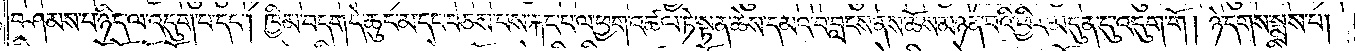བཤམས་པ་ཉིད་ལ་འདུག་པ་དང༌། ཁྱིམ་བདག་དེ་ཆུང་མ་དང་བཅས་པས་རྐང་པ་ལ་ཕྱག་འཚལ་ཏེ་སྟན་ཆེས་དམའ་བ་བླངས་ནས་ཆོས་མཉན་པའི་ཕྱིར་མདུན་དུ་འདུག་གོ། །ཉེ་དགས་སྨྲས་པ།
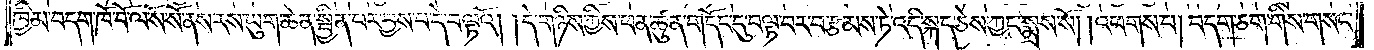ཁྱིམ་བདག་ཁོ་བོ་ལ་སོ་སོ་ནས་རས་ཡུག་ཆེན་སྦྱིན་པར་བྱས་པ་དེ་བལྟའོ། །དེ་གཉིས་ཀྱིས་ཕན་ཚུན་གདོང་དུ་བལྟ་བར་བརྩམས་ཏེ་འདི་སྐད་ཅེས་ཀྱང་སྨྲས་སོ། །འཕགས་པ། བདག་ཅག་གིས་གསང་
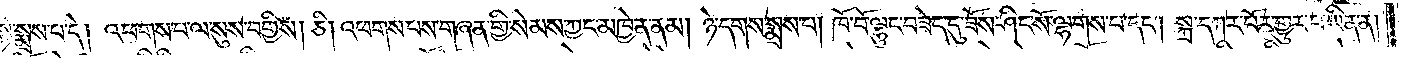སྟེ་སྨྲས་པ་དེ། འཕགས་པ་ལ་སུས་བགྱིས། ཅི། འཕགས་པས་གཞན་གྱི་སེམས་ཀྱང་མཁྱེན་ནམ། ཉེ་དགས་སྨྲས་པ། ཁོ་བོ་ལྷུང་བཟེད་དུ་ཟོས་ཤིང་སོ་ལྷགས་པ་དང༌། སྐྲ་དཀར་པོར་གྱུར་པ་ཡིན་ན།
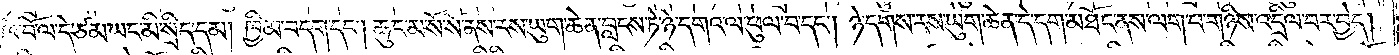ཁོ་བོ་ལ་དེ་ཙམ་ཡང་མི་སྲིད་དམ། ཁྱིམ་བདག་དང༌། ཆུང་མ་སོ་སོ་ནས་རས་ཡུག་ཆེན་བླངས་ཏེ་ཉེ་དགའ་ལ་ཕུལ་བ་དང༌། ཉེ་དགས་རས་ཡུག་ཆེན་དེ་དག་མཐོང་ནས་ལག་པ་གཉིས་འདྲིལ་བར་བྱེད།
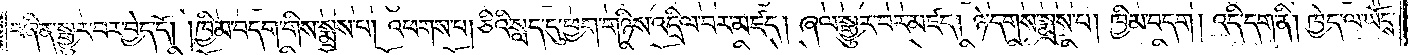བཞིན་སྒྱུར་བར་བྱེད་དོ། །ཁྱིམ་བདག་གིས་སྨྲས་པ། འཕགས་པ། ཅིའི་སླད་དུ་ཕྱག་གཉིས་འདྲིལ་བར་མཛད། ཞལ་སྒྱུར་བར་མཛད། ཉེ་དགས་སྨྲས་པ། ཁྱིམ་བདག། འདི་དག་ནི། ཁྱེད་ལ་ཡོངས་
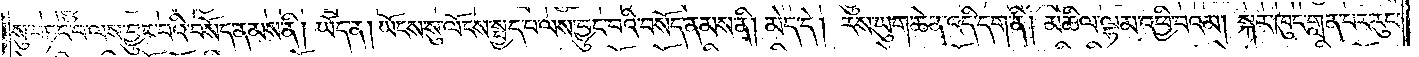སུ་བཏང་བ་ལས་བྱུང་བའི་བསོད་ནམས་ནི། ཡོད་ན། ཡོངས་སུ་ལོངས་སྤྱོད་པ་ལས་བྱུང་བའི་བསོད་ནམས་ནི། མེད་དེ། རས་ཡུག་ཆེན་འདི་དག་ནི། མཆིལ་ལྷམ་འཕྱི་བའམ། སྐར་ཁུང་གླན་པར་རུང་
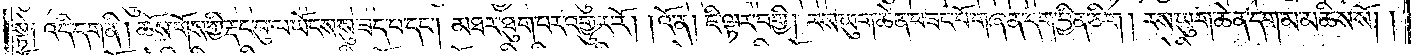སྟེ༏ འདི་དག་ནི། ཆོས་གོས་ཀྱི་རྡང་བུ་ལ་ཡོངས་སུ་ཟད་པ་དང༌། མཐར་ཐུག་པར་འགྱུར་རོ། །འོ་ན། ཇི་ལྟར་བགྱི། རས་ཡུག་ཆེན་བཟང་པོ་གཞན་དག་བྱིན་ཅིག ། རས་ཡུག་ཆེན་དག་མ་མཆིས་སོ། །
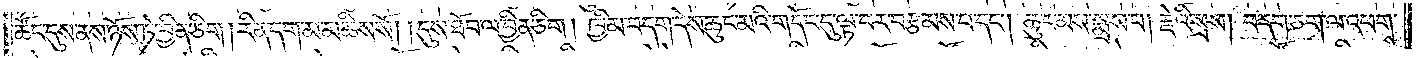ཚོང་དུས་ནས་ཉོས་ཏེ་བྱིན་ཅིག །རིན་དག་མ་མཆིས་སོ། །དུས་ཐོབ་ལ་བྱིན་ཅིག། ཁྱིམ་བདག་དེས་ཆུང་མའི་གདོང་དུ་ལྟ་བར་བརྩམས་པ་དང༌། ཆུང་མས་སྨྲས་པ། རྗེའི་སྲས། བདག་ཅག་ལ་འཕགས་
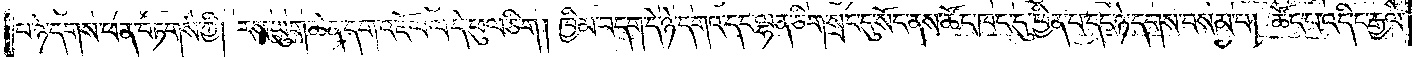པ་ཉེ་དགས་ཕན་བཏགས་ཀྱི། རས་ཡུག་ཆེན་དག་འཇོལ་ལ་དེ་ཕུལ་ཅིག། ཁྱིམ་བདག་དེ་ཉེ་དགའ་དང་ལྷན་ཅིག་སྲང་དུ་སོང་ནས་ཚོང་ཁང་དུ་ཕྱིན་པ་དང་ཉེ་དགས་བསམ་པ། ཚོང་པ་འདི་ང་རྒྱལ་
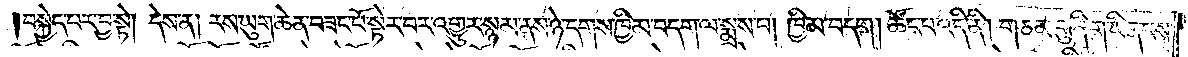བསྐྱེད་པར་བྱ་སྟེ། དེས་ན། རས་ཡུག་ཆེན་བཟང་པོ་སྟེར་བར་འགྱུར་སྙམ་ནས་ཉེ་དགས་ཁྱིམ་བདག་ལ་སྨྲས་པ། ཁྱིམ་བདག། ཚོང་པ་འདི་ནི། གཅམ་བུ་ཞིག་ཡིན་པས་
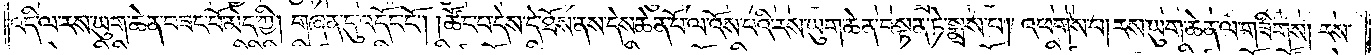འདི་ལ་རས་ཡུག་ཆེན་བཟང་པོ་མེད་ཀྱི། གཞན་དུ་འདོང་ངོ༌། །ཚོང་པ་དེས་དེ་ཐོས་ནས་དེས་ཆེན་པོ་ལ་འོས་པའི་རས་ཡུག་ཆེན་བསྟན་ཏེ་སྨྲས་པ། འཕགས་པ། རས་ཡུག་ཆེན་ལ་གཟིགས། རས་
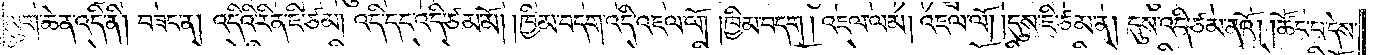ཡུག་ཆེན་འདི་ནི། བཟང་ན། འདིའི་རིན་ཇི་ཙམ། འདི་དང་འདི་ཙམ་མོ། །ཁྱིམ་བདག་འདི་འཇལ་ལོ། །ཁྱིམ་བདག། འཇལ་ལམ། འཇལ་ལོ། །དུས་ཇི་ཙམ་ན། དུས་འདི་ཙམ་ནའོ། །ཚོང་པ་དེས་
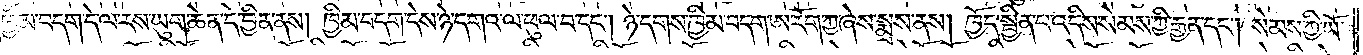ཁྱིམ་བདག་དེ་ལ་རས་ཡུག་ཆེན་དེ་བྱིན་ནས། ཁྱིམ་བདག་དེས་ཉེ་དགའ་ལ་ཕུལ་བ་དང༌། ཉེ་དགས་ཁྱིམ་བདག་ཨ་རོག་ཀྱ་ཞེས་སྨྲས་ནས། ཁྱོད་སྦྱིན་པ་འདིས་སེམས་ཀྱི་རྒྱན་དང༌། སེམས་ཀྱི་ཡོ་
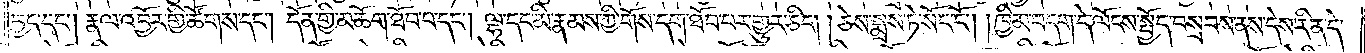བྱད་དང༌། རྣལ་འབྱོར་གྱི་ཚོགས་དང༌། དོན་གྱི་མཆོག་ཐོབ་པ་དང༌། ལྷ་དང་མི་རྣམས་ཀྱི་གོས་དག་ཐོབ་པར་གྱུར་ཅིག །ཅེས་སྨྲས་ཏེ་སོང་ངོ༌། །ཁྱིམ་བདག་དེ་ལོངས་སྤྱོད་བསྲབས་ནས་དེས་རིན་དེ་
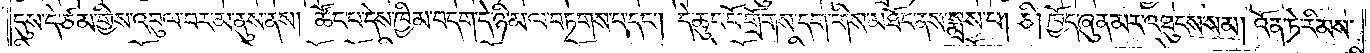དུས་དེ་ཙམ་གྱིས་འབུལ་བར་མ་ནུས་ནས། ཚོང་པ་དེས་ཁྱིམ་བདག་དེ་ཉི་མ་ལ་བཏགས་པ་དང༌། དེ་ཆུང་པོ་གྲོགས་དག་གིས་མཐོང་ནས་སྨྲས་པ། ཅི། ཁྱོད་ཞུན་མར་འཐུངས་སམ། འོན་ཏེ་རིམས་
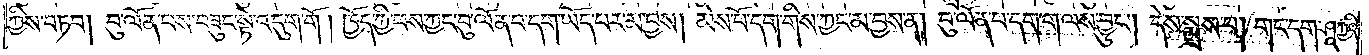ཀྱིས་བཏབ། བུ་ལོན་པས་བཟུང་སྟེ་འདུག་གོ །ཁྱོད་ཀྱི་ཕས་ཀྱང་བུ་ལོན་བདག་ཡོད་པར་མ་བྱས། མེས་པོ་དག་གིས་ཀྱང་མ་བྱས་ན། བུ་ལོན་པ་དག་ལས་བྱུང༌། དེས་སྨྲས་པ། གང་དག་ཤཱཀྱའི་
